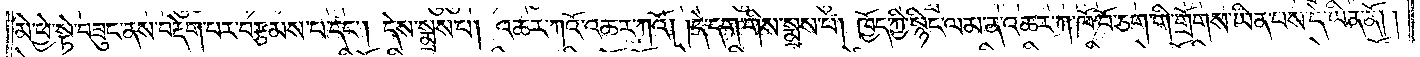མེ་ཕྱེ་སྟེ་བཟུང་ནས་བརྡེག་པར་བརྩམས་པ་དང༌། དེས་སྨྲས་པ། འཆར་ཀའོ་འཆར་ཀའོ། །དེ་དག་གིས་སྨྲས་པ། ཁྱོད་ཀྱི་སྙིང་ལམ་ན་འཆར་ཀ་ཁོ་བོ་ཅག་གི་གྲོགས་ཡིན་པས་དེ་ཡིན་ནོ། །
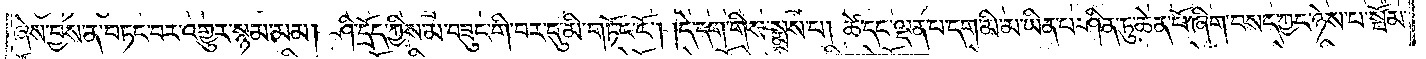ཞེས་བྱས་ན་བཏང་བར་འགྱུར་སྙམ་མམ། ཤི་དྲོད་ཀྱིས་མ་བཟུང་གི་བར་དུ་མི་གཏོང་ངོ༌། །དེ་དག་གིས་སྨྲས་པ། ཚེ་དང་ལྡན་པ་དག་མི་མ་ཡིན་པ་ཤིན་ཏུ་ཆེན་པོ་ཞིག་བསད་ཀྱང་ཉེས་པ་སྦོམ་
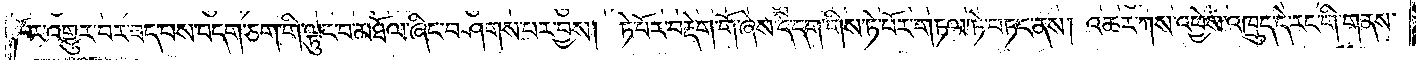པོར་འགྱུར་བར་ཟད་པས་བདག་ཅག་གི་ལྟུང་བ་མཐོལ་ཞིང་བཤགས་པར་བྱས། ཏེ་པོར་བརྡེག་གོ་ཞེས་དེ་དག་གིས་ཏེ་པོར་གཏལ་ཏེ་བཏང་ནས། འཆར་ཀས་འཕྱེས་འཁྲུད་དེ་རང་གི་གནས་
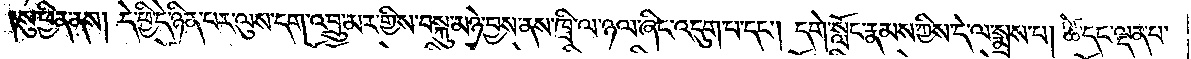སུ་ཕྱིན་ནས། དེ་ཕྱི་དེ་ཉིན་པར་ལུས་དག་འབྲུ་མར་གྱིས་བསྐུ་མཉེ་བྱས་ནས་ཁྲི་ལ་ཉལ་ཞིང་འདུག་པ་དང༌། དགེ་སློང་རྣམས་ཀྱིས་དེ་ལ་སྨྲས་པ། ཚེ་དང་ལྡན་པ་
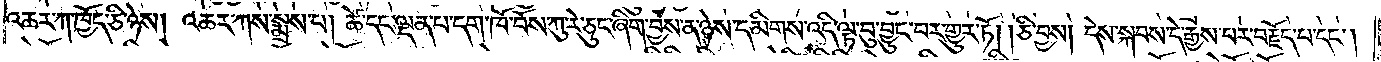འཆར་ཀ་ཁྱོད་ཅི་ཉེས། འཆར་ཀས་སྨྲས་པ། ཚེ་དང་ལྡན་པ་དག་ཁོ་བོས་ཀུ་རེ་ཅུང་ཞིག་བྱས་ན་ཉེས་དམིགས་འདི་ལྟ་བུ་བྱུང་བར་གྱུར་ཏོ། །ཅི་བྱས། དེས་སྐབས་དེ་རྒྱས་པར་བརྗོད་པ་དང༌།
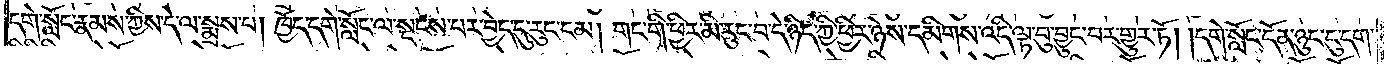དགེ་སློང་རྣམས་ཀྱིས་དེ་ལ་སྨྲས་པ། ཁྱོད་དགེ་སློང་ལ་སྡངས་པར་བྱེད་དུ་རུང་ངམ། གང་གི་ཕྱིར་མི་རུང་བ་དེ་ཉིད་ཀྱི་ཕྱིར་ཉེས་དམིགས་འདི་ལྟ་བུ་བྱུང་བར་གྱུར་ཏོ། །དགེ་སློང་དོན་ཉུང་དུ་དག་
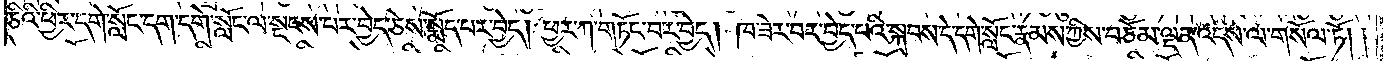ཅིའི་ཕྱིར་དགེ་སློང་དག་དགེ་སློང་ལ་སྔངས་པར་བྱེད་ཅེས་སྨོད་པར་བྱེད། ཕྱར་ཀ་གཏོང་བར་བྱེད། ཁ་ཟེར་བར་བྱེད་པའི་སྐབས་དེ་དགེ་སློང་རྣམས་ཀྱིས་བཅོམ་ལྡན་འདས་ལ་གསོལ་ཏོ། །
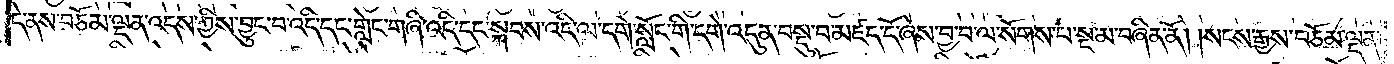དེ་ནས་བཅོམ་ལྡན་འདས་ཀྱིས་བྱུང་བ་འདི་དང་གླེང་གཞི་འདི་དང་སྐབས་འདི་ལ་དགེ་སློང་གི་དགེ་འདུན་བསྡུ་བ་མཛད་དོ་ཞེས་བྱ་བ་ལ་སོགས་པ་སྔ་མ་བཞིན་ནོ། །སངས་རྒྱས་བཅོམ་ལྡན་
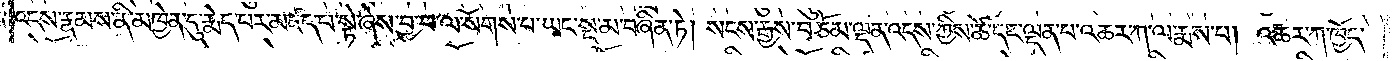འདས་རྣམས་ནི་མཁྱེན་དུ་རྨེད་པར་མཛད་པ་སྟེ་ཞེས་བྱ་བ་ལ་སོགས་པ་ཡང་སྔ་མ་བཞིན་ཏེ། སངས་རྒྱས་བཅོམ་ལྡན་འདས་ཀྱིས་ཚེ་དང་ལྡན་པ་འཆར་ཀ་ལ་རྨས་པ། འཆར་ཀ་ཁྱོད་
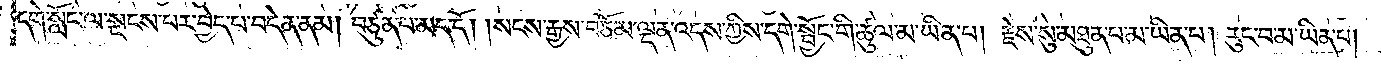དགེ་སློང་ལ་སྔངས་པར་བྱེད་པ་བདེན་ནམ། བཙུན་པ་མད་དོ། །སངས་རྒྱས་བཅོམ་ལྡན་འདས་ཀྱིས་དགེ་སྦྱོང་གི་ཚུལ་མ་ཡིན་པ། རྗེས་སུ་མཐུན་པ་མ་ཡིན་པ། རུང་བ་མ་ཡིན་པ།
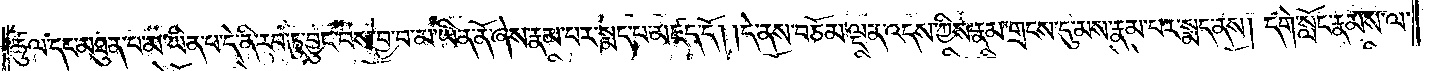ཚུལ་དང་མཐུན་པ་མ་ཡིན་པ་དེ་ནི་རབ་ཏུ་བྱུང་བས་བྱ་བ་མ་ཡིན་ནོ་ཞེས་རྣམ་པར་སྨད་པ་མཛད་དོ། །དེ་ནས་བཅོམ་ལྡན་འདས་ཀྱིས་རྣམ་གྲངས་དུ་མས་རྣམ་པར་སྨད་ནས། དགེ་སློང་རྣམས་ལ་
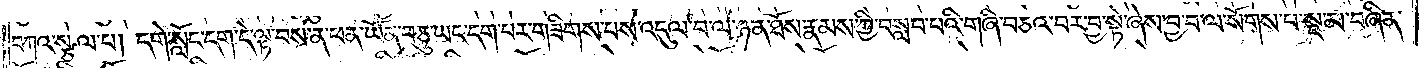བཀའ་སྩལ་པ། དགེ་སློང་དག་དེ་ལྟ་བས་ན་ཕན་ཡོན་བཅུ་ཡང་དག་པར་གཟིགས་པས་འདུལ་བ་ལ་ཉན་ཐོས་རྣམས་ཀྱི་བསླབ་པའི་གཞི་བཅའ་བར་བྱ་སྟེ་ཞེས་བྱ་བ་ལ་སོགས་པ་སྔ་མ་བཞིན་
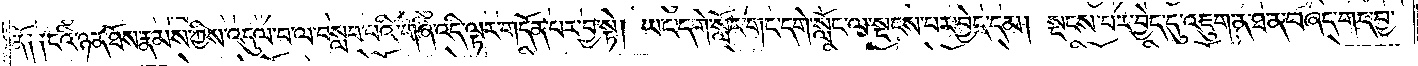ནོ༑ ༑ངའི་ཉན་ཐོས་རྣམས་ཀྱིས་འདུལ་བ་ལ་བསླབ་པའི་གཞི་འདི་ལྟར་གདོན་པར་བྱ་སྟེ། ཡང་དགེ་སློང་གང་དགེ་སློང་ལ་སྔངས་པར་བྱེད་དམ། སྡངས་པར་བྱེད་དུ་འཇུག་ན་ཐ་ན་བཞད་གད་བྱ་
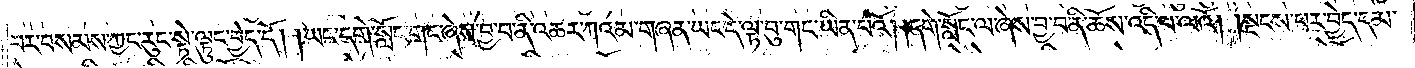བར་བསམས་ཀྱང་རུང་སྟེ་ལྟུང་བྱེད་དོ། །ཡང་དགེ་སློང་གང་ཞེས་བྱ་བ་ནི་འཆར་ཀའམ་གཞན་ཡང་དེ་ལྟ་བུ་གང་ཡིན་པའོ། །དགེ་སློང་ལ་ཞེས་བྱ་བ་ནི་ཆོས་འདི་པ་ལའོ། །སྔངས་པར་བྱེད་དམ་
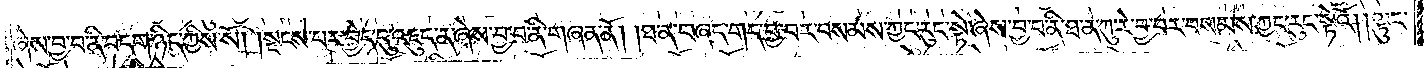ཞེས་བྱ་བ་ནི་བདག་ཉིད་ཀྱིས་སོ། །སྔངས་པར་བྱེད་དུ་འཇུད་ན་ཞེས་བྱ་བ་ནི་གཞན་ནོ། །ཐ་ན་བཞད་གད་བྱ་བར་བསམས་ཀྱང་རུང་སྟེ་ཞེས་བྱ་བ་ནི་ཐ་ན་ཀུ་རེ་བྱ་བར་བསམས་ཀྱང་རུང་སྟེའོ། །ལྟུང་
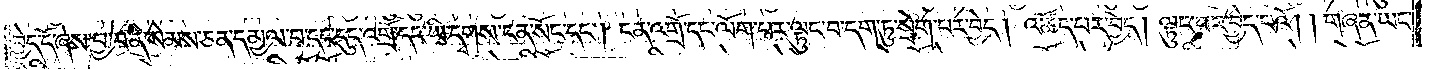བྱེད་དོ་ཞེས་བྱ་བ་ནི་སེམས་ཅན་དམྱལ་བ་དང་དུད་འགྲོ་དང་ཡི་དྭགས་ངན་སོང་དང༌། ངན་འགྲོ་དང་ལོག་པར་ལྟུང་བ་དག་ཏུ་སྲེག་པར་བྱེད། འཚོད་པར་བྱེད། ལྟུང་བར་བྱེད་པའོ། །གཞན་ཡང་
